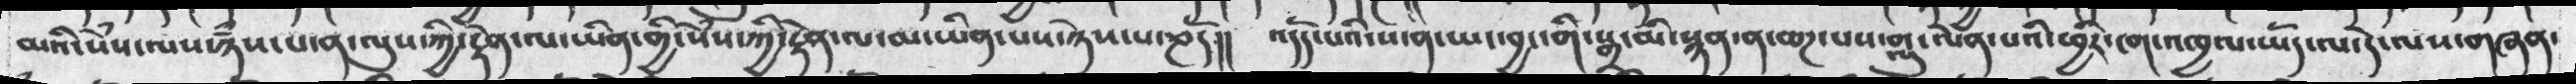མའི་སེཾས་ལས་ཉཾས་པ་ན་ལུས་ཀྱི་རྟེན་ལ་ཡིན་གྱི་སེཾས་ཀྱི་རྟེན་ལ་མ་ཡིན་པས་ཉེས་པ་ཎདོ།།  འདོད་པའི་ས་ན་ཡང་བྱང་གི་སྒྲ་མི་སྙན་ན་ཆཌ་པས་གླུ་ལེན་པའི་ཕྱིར་ངག་འཁྱལ་ཡོད་ལ་དེ་ལས་གཞན་
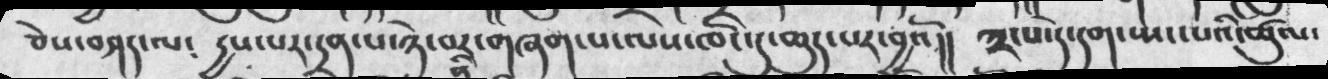ཅེས་བཤད་ལ༴    དྱས་པར་དྲན་པ་ཉེ་བར་གཞག་པ་ལས་ཁོང་དུ་ཆུད་པར་བྱའོ།།     ༣་པ་དེ་དག་སྤང་པའི་ཚུལ་
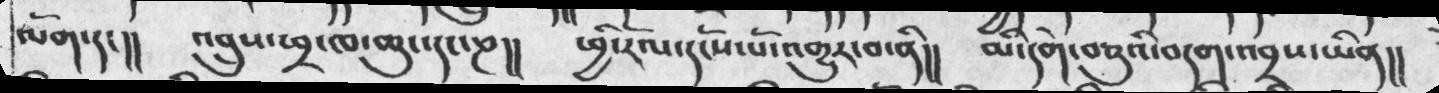ལོག་དང།།  འབྲུས་ཕྲ་ཁ་ཆུ་དང་ཎ།།  ཕྱི་རོལ་དངོས་པོ་འགྱུར་བ་ནི།།  མི་དགེ་བཅུའི་བདག་འབྲས་ཡིན།།
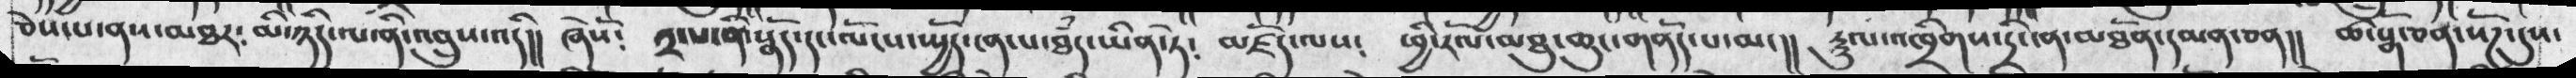ཅེས་པ་ནས་མཐར༴ མི་ཉིད་ལ་ནི་འབྲུས་འདི།། ཞེསོ༴ ༢་པ་ནི་སྣོད་དང་ལོངས་སྤྱོད་ངན་པ་ཐཾད་ཡིན་ཏེ༴ མཛོད་ལས༴  ཕྱི་རོལ་མཐུ་ཆུང་གནོད་པ་མང།།  རྡུལ་འཁྲིགས་དྲི་ངན་མཐོན་དམན་ཅན།།  ཚ་སྒོ་ཅན་སོཌ་དུས་
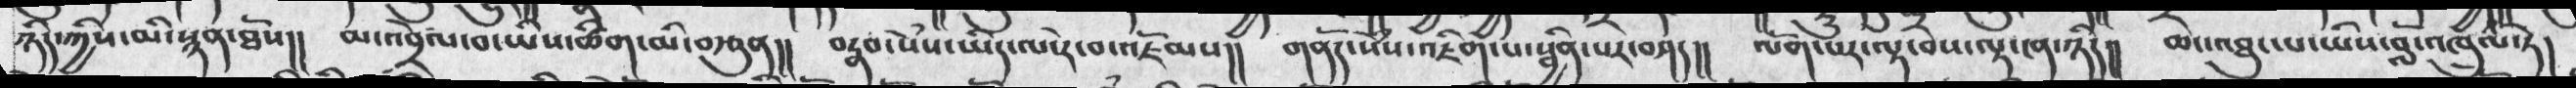ཉིད་ཀྱིས་མི་སྙན་ཐོས།།   མ་འབྲེལ་བ་ཡིས་ཚིག་མི་བརྩུན།།  བརྣབ་སེཾས་ཡིད་ལ་རེ་བ་འཇོམས།།  གནོད་སེཾས་འཇིག་པ་སྦྱིན་པར་བཤད།།  ལོག་པར་ལྟ་བས་ལྟ་ངན་ཉིད།།   ཆང་འཐུང་པ་ཡིས་བློ་འཁྲུལ་ཏེ།།
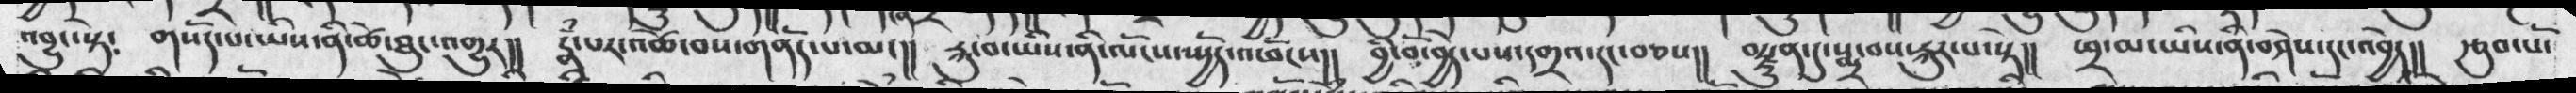འབྱུང་སྟེ༴   གསོད་པ་ཡིས་ནི་ཚེ་ཐུང་འགྱུར།།   རྣཾ་པར་འཚེ་བས་གནོད་པ་མང།།   རྐུ་བ་ཡིས་ནི་ལོངས་ཡྱོད་འཕོངས།།   བྱི་བོ་བྱེད་པས་དགྲའ་དང་བཅས།།   བརྫུན་དུ་སྨྲ་བས་རྐུར་པ་སྟེ།།   ཕྲ་མ་ཡིས་ནི་བཤེས་དང་འབྱེད།།  རྩུབ་པོ་
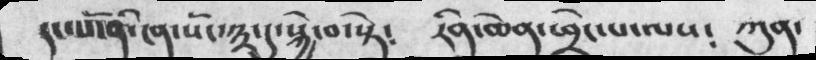དང་པོ་ནི་ངན་སོང་༣་དུ་སྐྱེ་བ་སྟེ༴  རིན་ཆེན་ཕྲེང་པ་ལས༴  ཀུན་
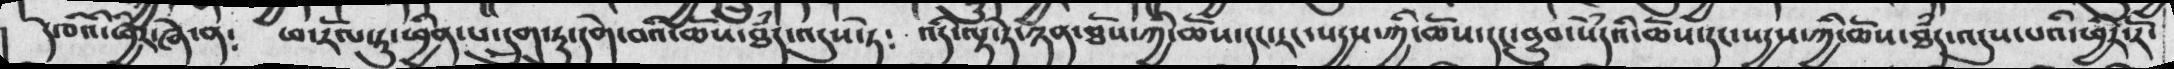། དེ་ཅིའི་ཕྱིར་ཞེ་ན༴ ཕ་རོལ་ཏུ་ཕྱིན་པ་དྲུག་ཏུ་དགེ་བའི་ཆོས་ཐཾད་འདུས་ཏེ༴  འདི་ལྟ་ཏེ་ཉན་ཐོས་ཀྱི་ཆོས་དང་རང་སདྱས་ཀྱི་ཆོས་དང་བྱུབ་སེཾདའི་ཆོས་དང་སདྱས་ཀྱི་ཆོས་ཐཾད་འདུས་པའི་ཕྱིར་རོ་
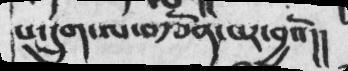པ་དྲུག་ལ་བརྩོན་པར་བྱའོ།།
